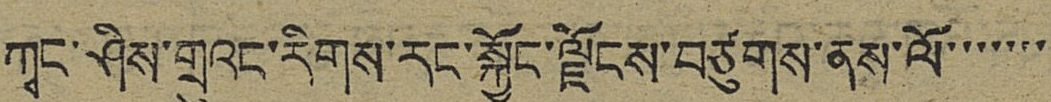ཀྭང་ཤིས་གྲུའང་རིགས་རང་སྐྱོང་ལྗོངས་བཙུགས་ནས་ལོ་་་་་་་
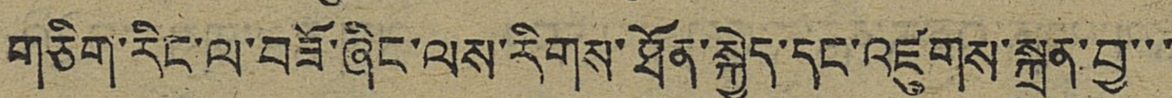གཅིག་རིང་ལ་བཟོ་ཞིང་ལས་རིགས་ཐོན་སྐྱེད་དང་འཛུགས་སྐྲུན་བྱ་་་
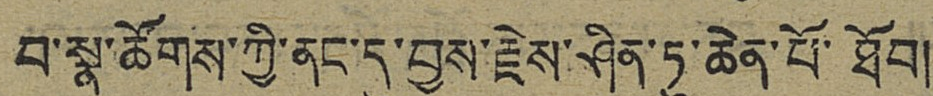བ་སྣ་ཚོགས་ཀྱི་ནང་དུ་བྱས་རྗེས་ཤིན་ཏུ་ཆེན་པོ་ཐོབ།
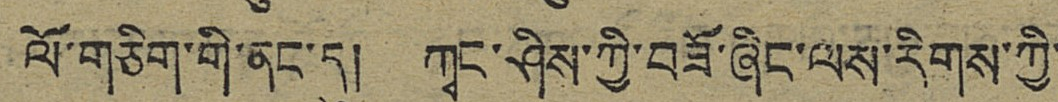ལོ་གཅིག་གི་ནང་དུ། ཀྭང་ཤིས་ཀྱི་བཟོ་ཞིང་ལས་རིགས་ཀྱི་
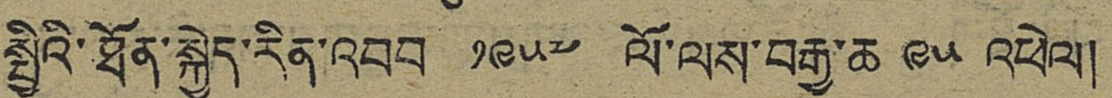སྤྱིའི་ཐོན་སྐྱེད་རིན་འབབ ༡༩༥༧ ལོ་ལས་བརྒྱ་ཆ ༩༥ འཕེལ།
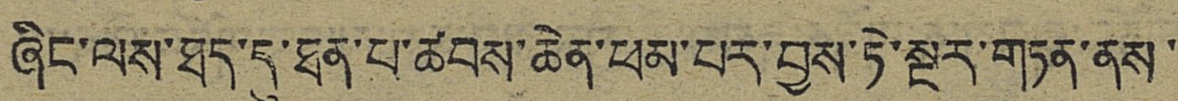ཞིང་ལས་ཐད་དུ་ཐན་པ་ཚབས་ཆེན་ཕམ་པར་བྱས་ཏེ་སྔར་གཏན་ནས་
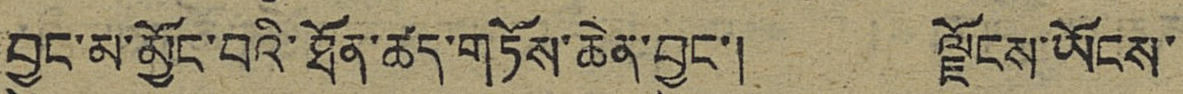བྱུང་མ་མྱོང་བའི་ཐོན་ཚད་གཏོས་ཆེན་བྱུང་། ལྗོངས་ཡོངས་
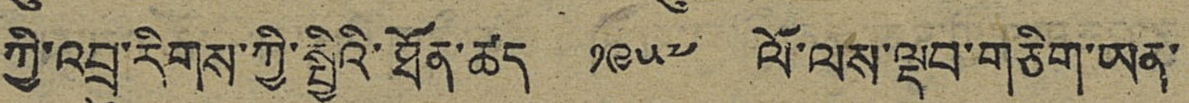ཀྱི་འབྲུ་རིགས་ཀྱི་སྤྱིའི་ཐོན་ཚད ༡༩༥༧ ལོ་ལས་ལྡབ་གཅིག་ཡན་
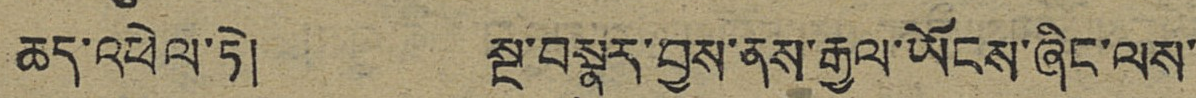ཆད་འཕེལ་ཏེ། སྔ་བསྣུར་བྱས་ནས་རྒྱལ་ཡོངས་ཞིང་ལས་
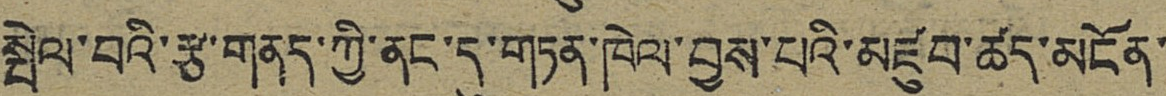སྤེལ་བའི་རྩ་གནད་ཀྱི་ནང་དུ་གཏན་ཁེལ་བྱས་པའི་མཛུབ་ཚད་མངོན་
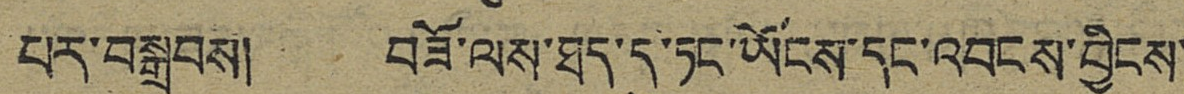པར་བསྒྲུབས། བཟོ་ལས་ཐད་དུ་ཏང་ཡོངས་དང་འབངས་བྱིངས་
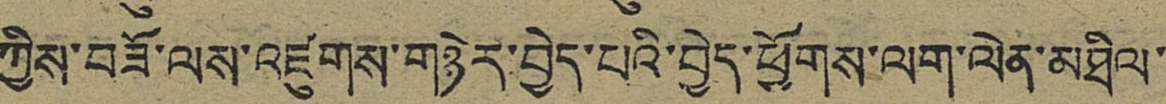ཀྱིས་བཟོ་ལས་འཛུགས་གཉེར་བྱེད་པའི་བྱེད་ཕྱོགས་ལག་ལེན་མཐིལ་
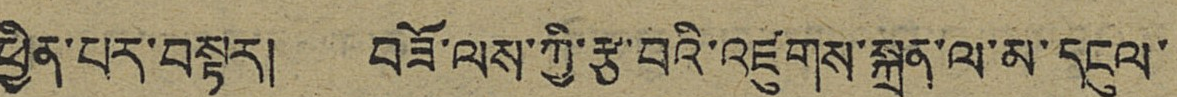ཕྱིན་པར་བསྟར། བཟོ་ལས་ཀྱི་རྩ་བའི་འཛུགས་སྐྲུན་ལ་མ་དངུལ་
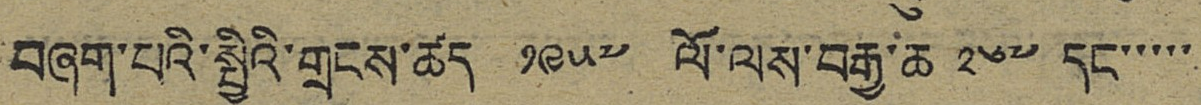བཞག་པའི་སྤྱིའི་གྲངས་ཚད ༡༩༥༧ ལོ་ལས་བརྒྱ་ཆ ༢༦༧ དང་་་་་
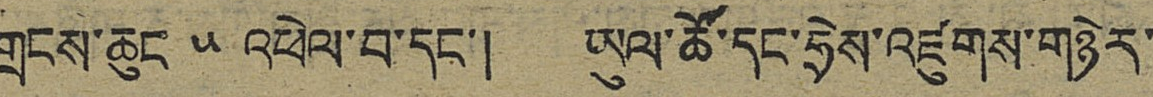གྲངས་ཆུང ༥ འཕེལ་བ་དང་། ཡུལ་ཚོ་དང་ཧྲེས་འཛུགས་གཉེར་
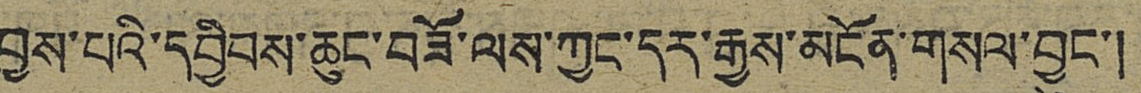བྱས་པའི་དབྱིབས་ཆུང་བཟོ་ལས་ཀྱང་དར་རྒྱས་མངོན་གསལ་བྱུང་།
